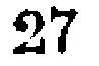27
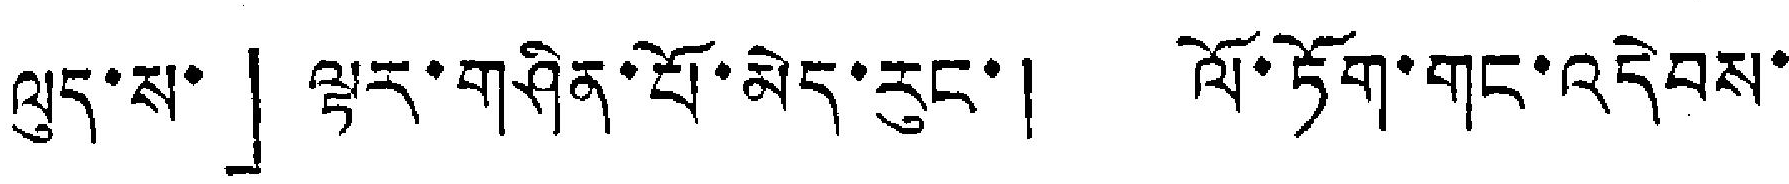ལུད་ས་」ལྟར་གཤིན་པོ་མེད་རུང་། ལོ་ཏོག་གང་འདེབས་
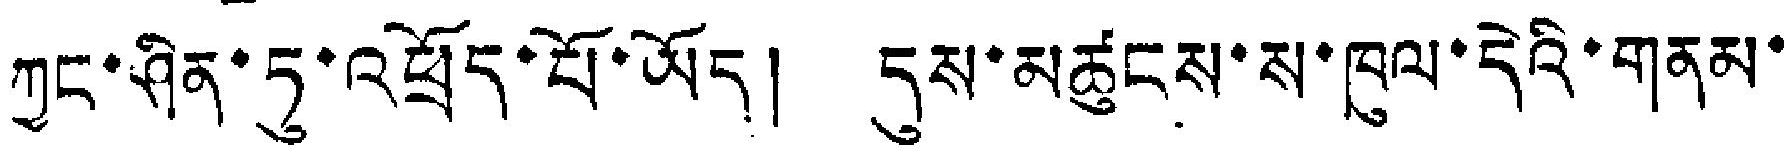ཀྱང་ཤིན་ཏུ་འཕྲོད་པོ་ཡོད། དུས་མཚུངས་ས་ཁུལ་དེའི་གནམ་
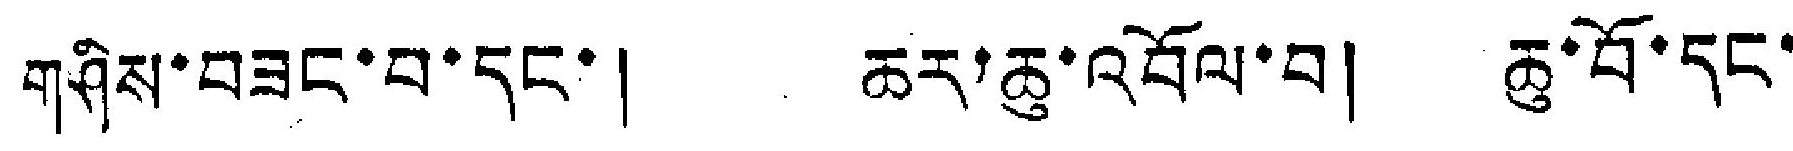གཤིས་བཟང་བ་དང་། ཆར་ཆུ་འབྲོལ་བ། ཆུ་བོ་དང་
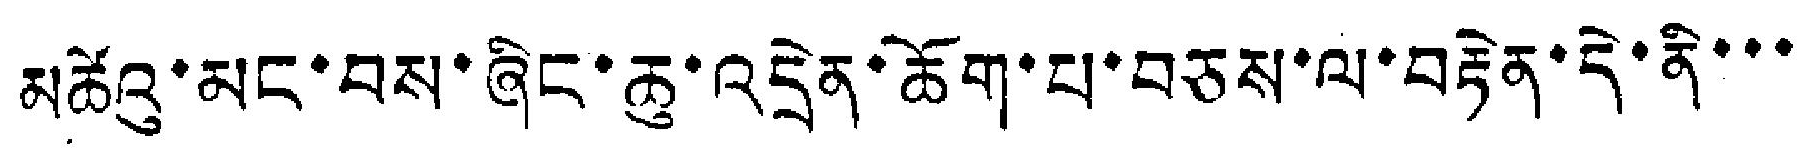མཚེའུ་མང་བས་ཞིང་ཆུ་འདྲེན་ཆོག་པ་བཅས་ལ་བརྟེན་དེ་ནི་་་
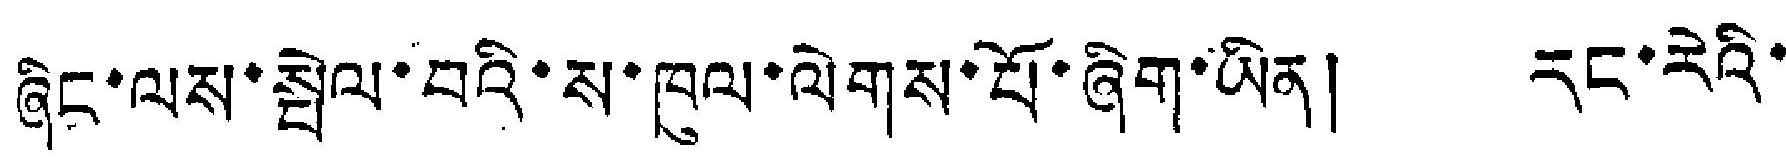ཞིང་ལས་སྤེལ་བའི་ས་ཁུལ་ལེགས་པོ་ཞིག་ཡིན། རང་རེའི་
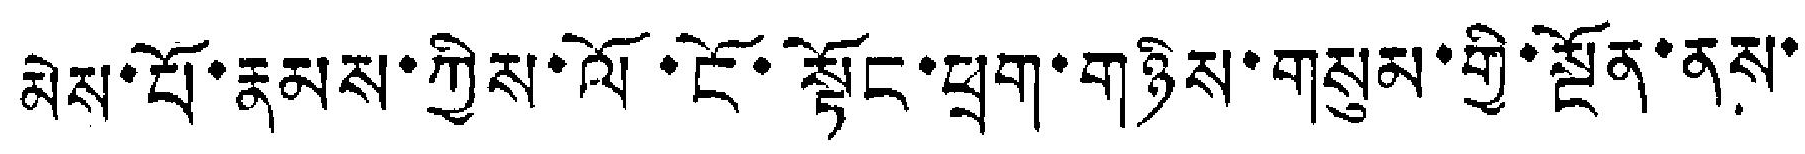མེས་པོ་རྣམས་ཀྱིས་ལོ་ངོ་སྟོང་ཕྲག་གཉིས་གསུམ་གྱི་སྔོན་ནས་
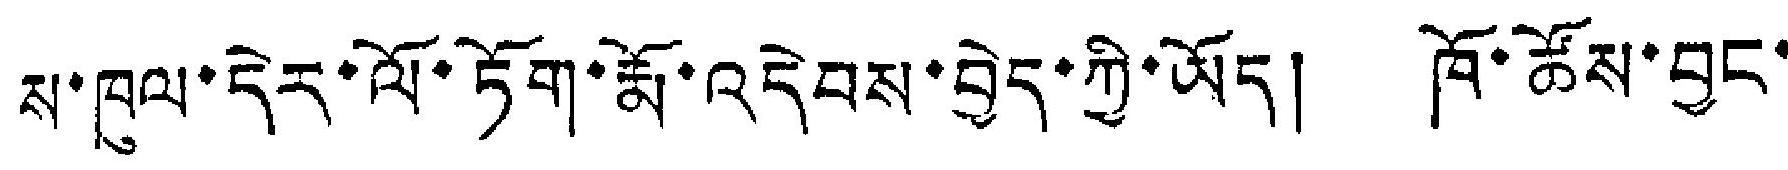ས་ཁུལ་དེར་ལོ་ཏོག་རྨོ་འདེབས་བྱེད་ཀྱི་ཡོད། ཁོ་ཚོས་བྱང་
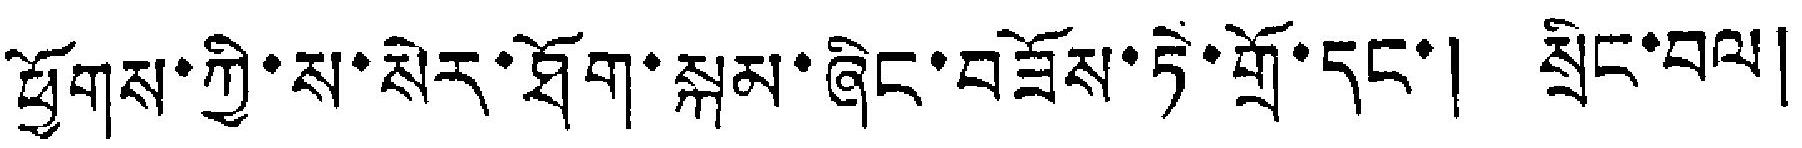ཕྱོགས་ཀྱི་ས་སེར་ཐོག་སྐམ་ཞིང་བཟོས་ཏེ་གྲོ་དང་། སྲིང་བལ།
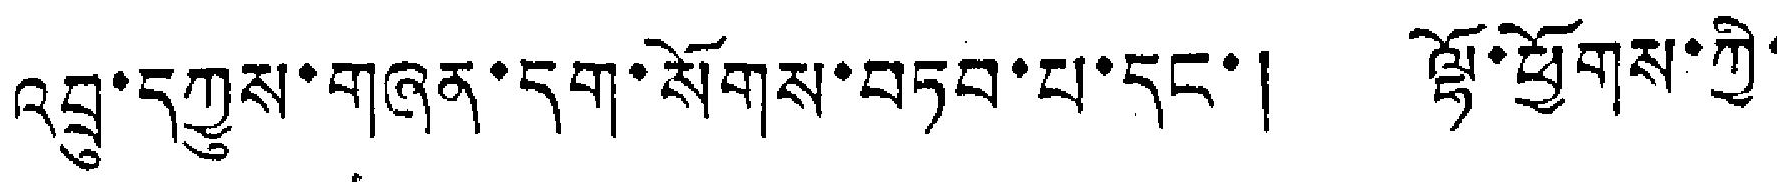འབྲུ་དཀྱུས་གཞན་དག་སོགས་བཏབ་པ་དང་། ལྷོ་ཕྱོགས་ཀྱི་
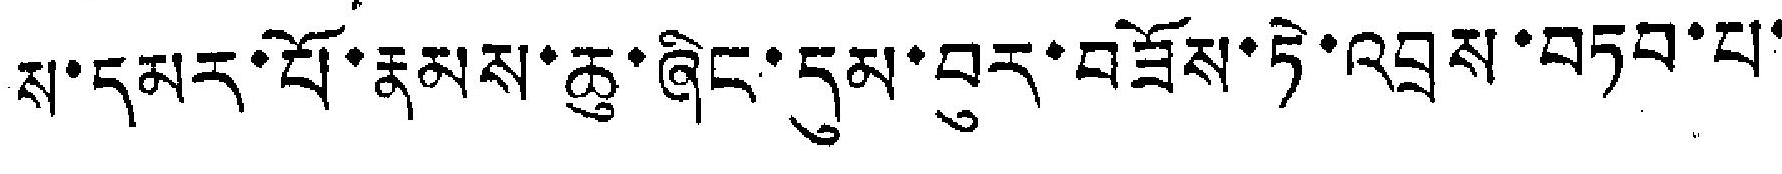ས་དམར་པོ་རྣམས་ཆུ་ཞིང་དུམ་བུར་བཟོས་ཏེ་འབྲས་བཏབ་པ་
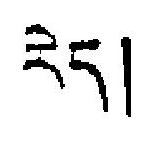རེད།
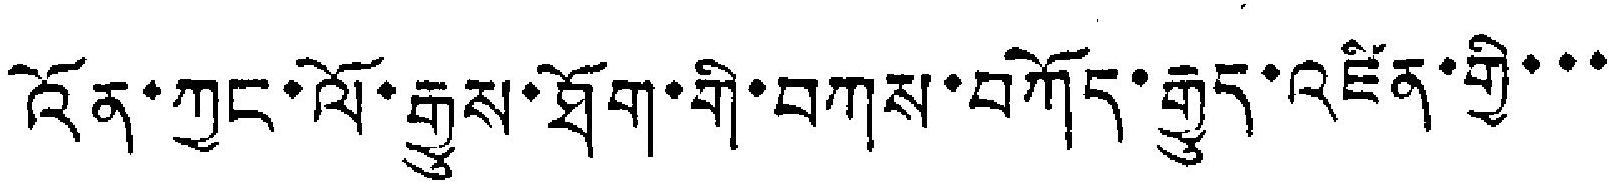འོན་ཀྱང་ལོ་རྒྱུས་ཐོག་གི་བཀས་བཀོད་རྒྱུད་འཛིན་གྱི་་་
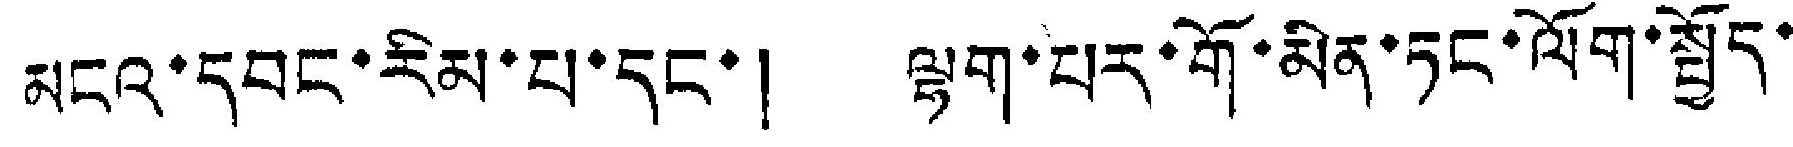མངའ་དབང་རིམ་པ་དང་། ལྷག་པར་གོ་མིན་ཏང་ལོག་སྤྱོད་
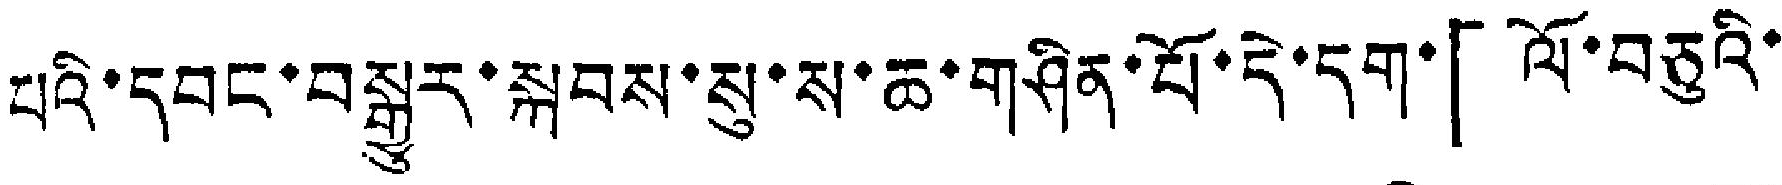པའི་དབང་བསྒྱུར་སྐབས་སུ་ས་ཆ་གཤིན་པོ་དེ་དག་「ལོ་བཅུའི་
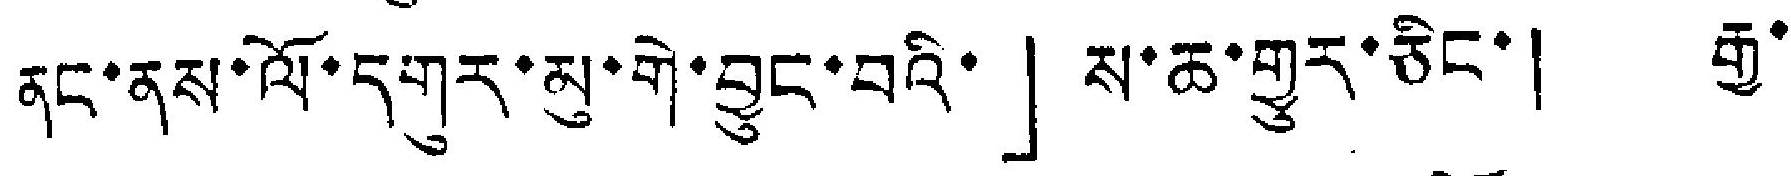ནང་ནས་ལོ་དགུར་མུ་གེ་བྱུང་བའི་」ས་ཆ་གྱུར་ཅིང་། རྒྱ་
